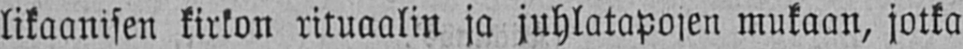likaanisen kirkon rituaalin ja juhlatapojen mukaan, jotka
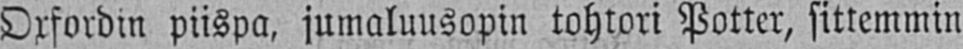Oxfordin piispa, jumaluusopin tohtori Potter, sittemmin
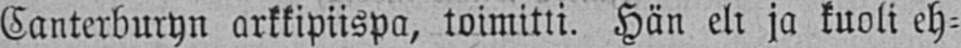Canterburyn arkkipiispa, toimitti. Hän eli ja kuoli eh-
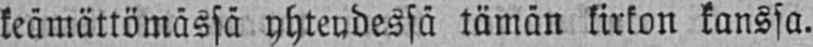keämättömässä yhteydessä tämän kirkon kanssa.
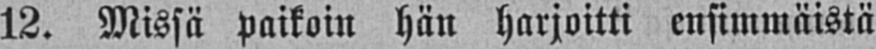12. Missä paikoin hän harjoitti ensimmäistä
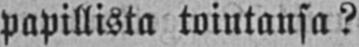papillista tointansa?
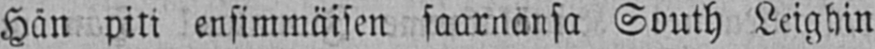Hän piti ensimmäisen saarnansa South Leighin
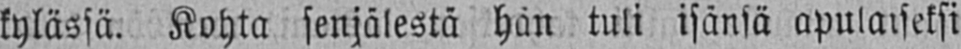kylässä. Kohta senjälestä hän tuli isänsä apulaiseksi
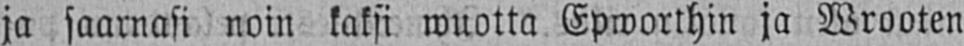ja saarnasi noin kaksi wuotta Epworthin ja Wrooten
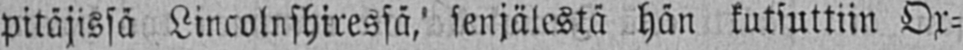pitäjissä Lincolnshiressä, senjälestä hän kutsuttiin Ox-
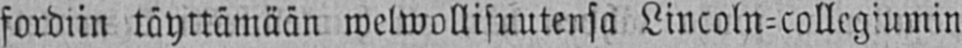fordiin täyttämään welwollisuutensa Lincoln-collegiumin
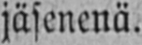jäsenenä.
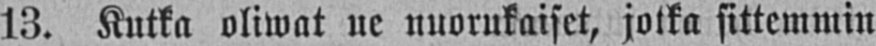13. Kutka oliwat ue nuorukaiset, jotka sittemmin
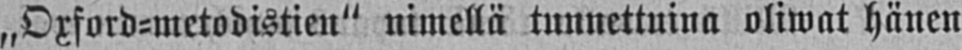„Oxford-metodistien" nimellä tunnettuina oliwat hänen
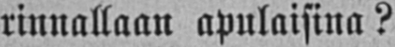rinnallaan apulaisina?
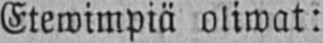Etewimpiä oliwat:
